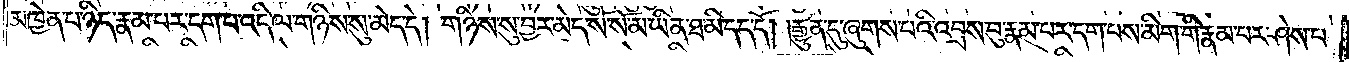མཁྱེན་པ་ཉིད་རྣམ་པར་དག་པ་འདི་ལ་གཉིས་སུ་མེད་དེ། གཉིས་སུ་བྱར་མེད་སོ་སོ་མ་ཡིན་ཐ་མི་དད་དོ། །རྒྱུན་དུ་ཞུགས་པའི་འབྲས་བུ་རྣམ་པར་དག་པས་མིག་གི་རྣམ་པར་ཤེས་པ་
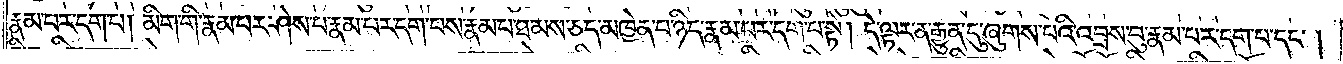རྣམ་པར་དག་པ། མིག་གི་རྣམ་པར་ཤེས་པ་རྣམ་པར་དག་པས་རྣམ་པ་ཐམས་ཅད་མཁྱེན་པ་ཉིད་རྣམ་པར་དག་པ་སྟེ། དེ་ལྟར་ན་རྒྱུན་དུ་ཞུགས་པའི་འབྲས་བུ་རྣམ་པར་དག་པ་དང༌།
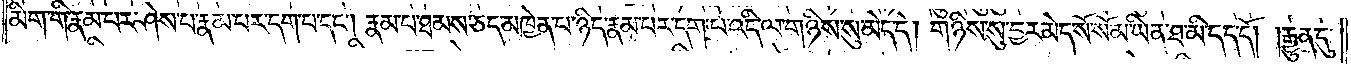མིག་གི་རྣམ་པར་ཤེས་པ་རྣམ་པར་དག་པ་དང༌། རྣམ་པ་ཐམས་ཅད་མཁྱེན་པ་ཉིད་རྣམ་པར་དག་པ་འདི་ལ་གཉིས་སུ་མེད་དེ། གཉིས་སུ་བྱར་མེད་སོ་སོ་མ་ཡིན་ཐ་མི་དད་དོ། །རྒྱུན་དུ་
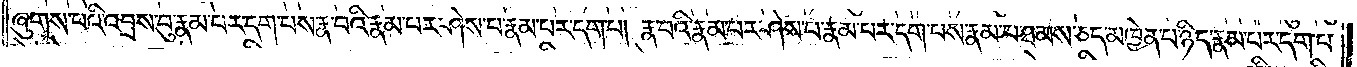ཞུགས་པའི་འབྲས་བུ་རྣམ་པར་དག་པས་རྣ་བའི་རྣམ་པར་ཤེས་པ་རྣམ་པར་དག་པ། རྣ་བའི་རྣམ་པར་ཤེས་པ་རྣམ་པར་དག་པས་རྣམ་པ་ཐམས་ཅད་མཁྱེན་པ་ཉིད་རྣམ་པར་དག་པ་
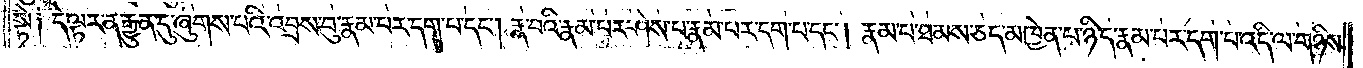སྟེ༑ དེ་ལྟར་ན་རྒྱུན་དུ་ཞུགས་པའི་འབྲས་བུ་རྣམ་པར་དག་པ་དང༌། རྣ་བའི་རྣམ་པར་ཤེས་པ་རྣམ་པར་དག་པ་དང༌། རྣམ་པ་ཐམས་ཅད་མཁྱེན་པ་ཉིད་རྣམ་པར་དག་པ་འདི་ལ་གཉིས་
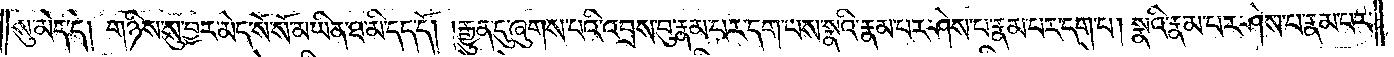སུ་མེད་དེ། གཉིས་སུ་བྱར་མེད་སོ་སོ་མ་ཡིན་ཐ་མི་དད་དོ། །རྒྱུན་དུ་ཞུགས་པའི་འབྲས་བུ་རྣམ་པར་དག་པས་སྣའི་རྣམ་པར་ཤེས་པ་རྣམ་པར་དག་པ། སྣའི་རྣམ་པར་ཤེས་པ་རྣམ་པར་
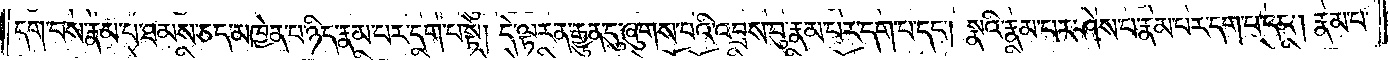དག་པས་རྣམ་པར་ཐམས་ཅད་མཁྱེན་པ་ཉིད་རྣམ་པར་དག་པ་སྟེ། དེ་ལྟར་ན་རྒྱུན་དུ་ཞུགས་པའི་འབྲས་བུ་རྣམ་པར་དག་པ་དང༌། སྣའི་རྣམ་པར་ཤེས་པ་རྣམ་པར་དག་པ་དང༌། རྣམ་པ་
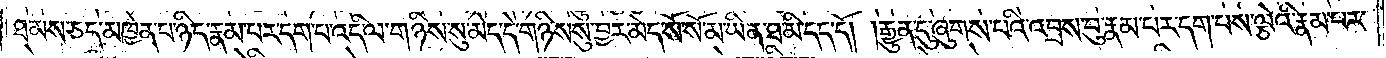ཐམས་ཅད་མཁྱེན་པ་ཉིད་རྣམ་པར་དག་པ་འདི་ལ་གཉིས་སུ་མེད་དེ་གཉིས་སུ་བྱར་མེད་སོ་སོ་མ་ཡིན་ཐ་མི་དད་དོ། །རྒྱུན་དུ་ཞུགས་པའི་འབྲས་བུ་རྣམ་པར་དག་པས་ལྕེའི་རྣམ་པར་
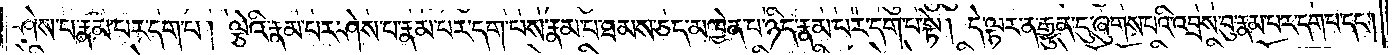ཤེས་པ་རྣམ་པར་དག་པ། ལྕེའི་རྣམ་པར་ཤེས་པ་རྣམ་པར་དག་པས་རྣམ་པ་ཐམས་ཅད་མཁྱེན་པ་ཉིད་རྣམ་པར་དག་པ་སྟེ། དེ་ལྟར་ན་རྒྱུན་དུ་ཞུགས་པའི་འབྲས་བུ་རྣམ་པར་དག་པ་དང༌།
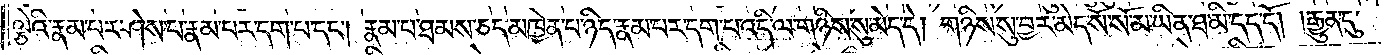ལྕེའི་རྣམ་པར་ཤེས་པ་རྣམ་པར་དག་པ་དང༌། རྣམ་པ་ཐམས་ཅད་མཁྱེན་པ་ཉིད་རྣམ་པར་དག་པ་འདི་ལ་གཉིས་སུ་མེད་དེ། གཉིས་སུ་བྱར་མེད་སོ་སོ་མ་ཡིན་ཐ་མི་དད་དོ། །རྒྱུན་དུ་
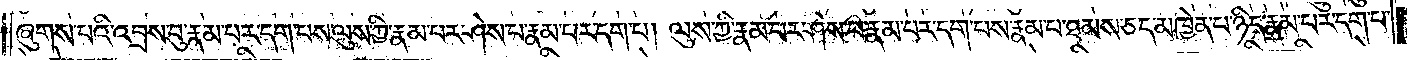ཞུགས་པའི་འབྲས་བུ་རྣམ་པར་དག་པས་ལུས་ཀྱི་རྣམ་པར་ཤེས་པ་རྣམ་པར་དག་པ། ལུས་ཀྱི་རྣམ་པར་ཤེས་པ་རྣམ་པར་དག་པས་རྣམ་པ་ཐམས་ཅད་མཁྱེན་པ་ཉིད་རྣམ་པར་དག་པ་
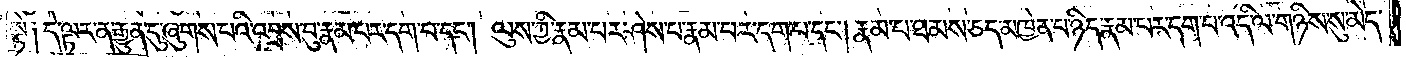སྟེ༑ དེ་ལྟར་ན་རྒྱུན་དུ་ཞུགས་པའི་འབྲས་བུ་རྣམ་པར་དག་པ་དང༌། ལུས་ཀྱི་རྣམ་པར་ཤེས་པ་རྣམ་པར་དག་པ་དང༌། རྣམ་པ་ཐམས་ཅད་མཁྱེན་པ་ཉིད་རྣམ་པར་དག་པ་འདི་ལ་གཉིས་སུ་མེད་
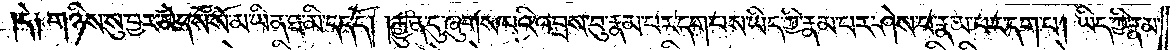དེ༑ གཉིས་སུ་བྱར་མེད་སོ་སོ་མ་ཡིན་ཐ་མི་དད་དོ། །རྒྱུན་དུ་ཞུགས་པའི་འབྲས་བུ་རྣམ་པར་དག་པས་ཡིད་ཀྱི་རྣམ་པར་ཤེས་པ་རྣམ་པར་དག་པ། ཡིད་ཀྱི་རྣམ་
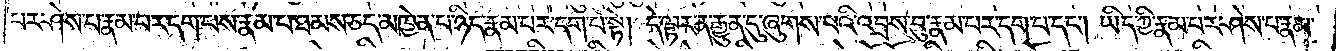པར་ཤེས་པ་རྣམ་པར་དག་པས་རྣམ་པ་ཐམས་ཅད་མཁྱེན་པ་ཉིད་རྣམ་པར་དག་པ་སྟེ། དེ་ལྟར་ན་རྒྱུན་དུ་ཞུགས་པའི་འབྲས་བུ་རྣམ་པར་དག་པ་དང༌། ཡིད་ཀྱི་རྣམ་པར་ཤེས་པ་རྣམ་
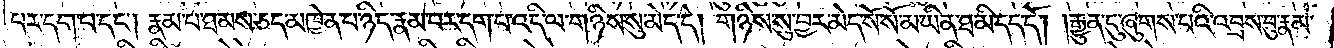པར་དག་པ་དང༌། རྣམ་པ་ཐམས་ཅད་མཁྱེན་པ་ཉིད་རྣམ་པར་དག་པ་འདི་ལ་གཉིས་སུ་མེད་དེ། གཉིས་སུ་བྱར་མེད་སོ་སོ་མ་ཡིན་ཐ་མི་དད་དོ། །རྒྱུན་དུ་ཞུགས་པའི་འབྲས་བུ་རྣམ་
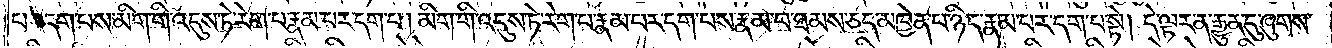པར་དག་པས་མིག་གི་འདུས་ཏེ་རེག་པ་རྣམ་པར་དག་པ། མིག་གི་འདུས་ཏེ་རེག་པ་རྣམ་པར་དག་པས་རྣམ་པ་ཐམས་ཅད་མཁྱེན་པ་ཉིད་རྣམ་པར་དག་པ་སྟེ། དེ་ལྟར་ན་རྒྱུན་དུ་ཞུགས་
